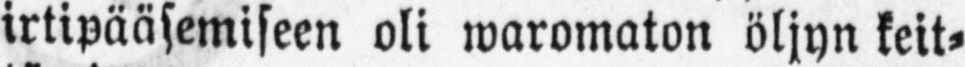irtipääsemiseen oli waromaton öljyn keit-
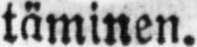täminen.
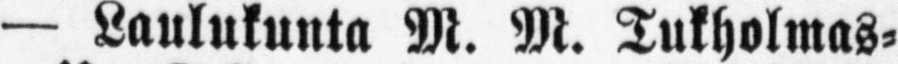— Laulukunta M. M. Tukholmas-
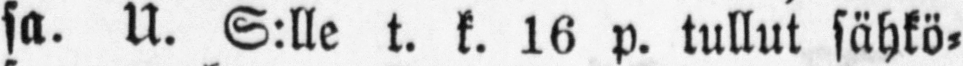sa. U. S:lle t. k. 16 p. tullut sähkö-
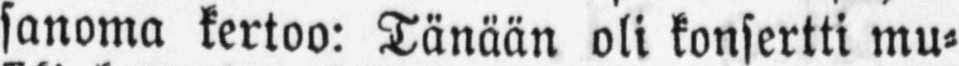sanoma kertoo: Tänään oli konsertti mu-
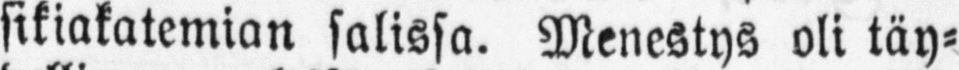sikiakatemian salissa. Menestys oli täy-
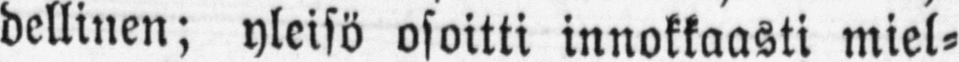dellinen; yleisö osoitti innokkaasti miel-
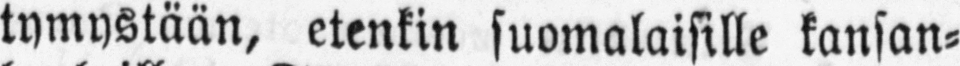tymystään, etenkin suomalaisille kansan-
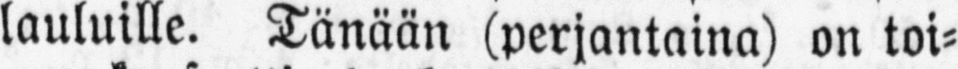lauluille. Tänään (perjantaina) on toi-
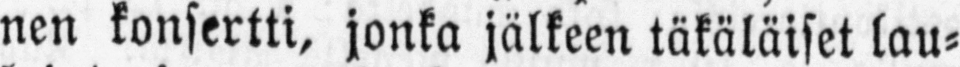nen konsertti, jonka jälkeen täkäläiset lau-
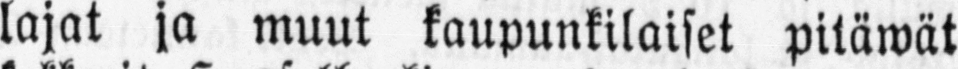lajat ja muut kaupunkilaiset pitäwät
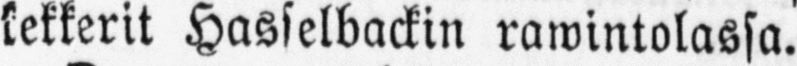kekkerit Hasselbackin rawintolassa.
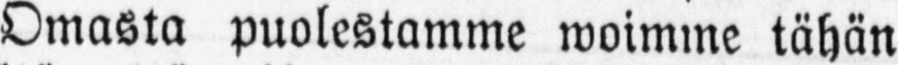Omasta puolestamme woimme tähän
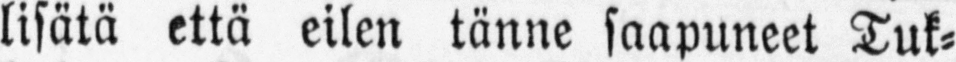lisätä että eilen tänne saapuneet Tuk-
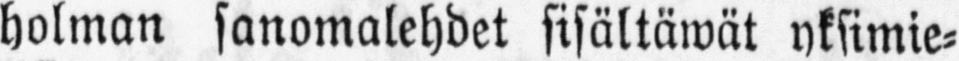holman sanomalehdet sisältäwät yksimie-
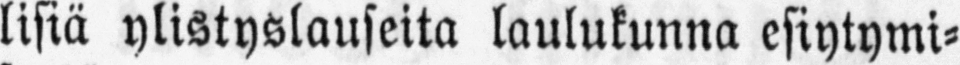lisiä ylistyslauseita laulukunna esiytymi-
